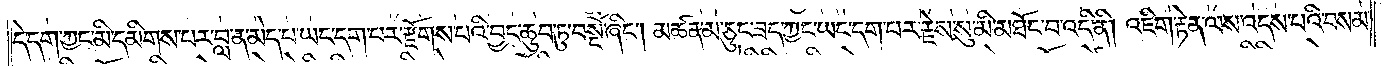དེ་དག་ཀྱང་མི་དམིགས་པར་བླ་ན་མེད་པ་ཡང་དག་པར་རྫོགས་པའི་བྱང་ཆུབ་ཏུ་བསྔོ་ཞིང༌། མཚན་མ་ཅུང་ཟད་ཀྱང་ཡང་དག་པར་རྗེས་སུ་མི་མཐོང་བ་འདི་ནི། འཇིག་རྟེན་ལས་འདས་པའི་བསམ་
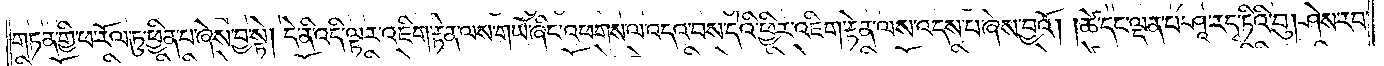གཏན་གྱི་ཕ་རོལ་ཏུ་ཕྱིན་པ་ཞེས་བྱ་སྟེ། དེ་ནི་འདི་ལྟར་འཇིག་རྟེན་ལས་གཡོ་ཞིང་འཕགས་ལ་འདའ་བས་དེའི་ཕྱིར་འཇིག་རྟེན་ལས་འདས་པ་ཞེས་བྱའོ། །ཚེ་དང་ལྡན་པ་ཤཱ་ར་དྭ་ཏིའི་བུ། ཤེས་རབ་
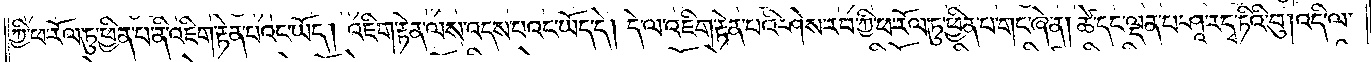ཀྱི་ཕ་རོལ་ཏུ་ཕྱིན་པ་ནི་འཇིག་རྟེན་པའང་ཡོད། འཇིག་རྟེན་ལས་འདས་པའང་ཡོད་དེ། དེ་ལ་འཇིག་རྟེན་པའི་ཤེས་རབ་ཀྱི་ཕ་རོལ་ཏུ་ཕྱིན་པ་གང་ཞེ་ན། ཚེ་དང་ལྡན་པ་ཤཱ་ར་དྭ་ཏིའི་བུ། འདི་ལ་
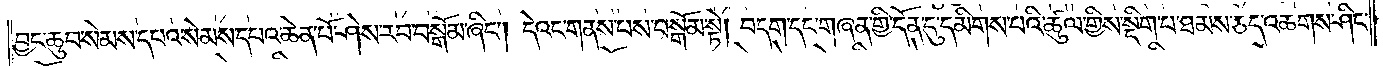བྱང་ཆུབ་སེམས་དཔའ་སེམས་དཔའ་ཆེན་པོ་ཤེས་རབ་བསྒོམ་ཞིང༌། དེའང་གནས་པས་བསྒོམ་སྟེ། བདག་དང་གཞན་གྱི་དོན་དུ་དམིགས་པའི་ཚུལ་གྱིས་སྡིག་པ་ཐམས་ཅད་འཆགས་ཤིང་
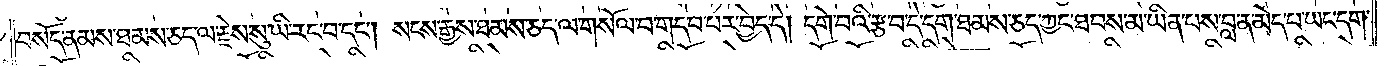བསོད་ནམས་ཐམས་ཅད་ལ་རྗེས་སུ་ཡི་རང་བ་དང༌། སངས་རྒྱས་ཐམས་ཅད་ལ་གསོལ་བ་གདབ་པར་བྱེད་དེ། དགེ་བའི་རྩ་བ་དེ་དག་ཐམས་ཅད་ཀྱང་ཐབས་མ་ཡིན་པས་བླ་ན་མེད་པ་ཡང་དག་
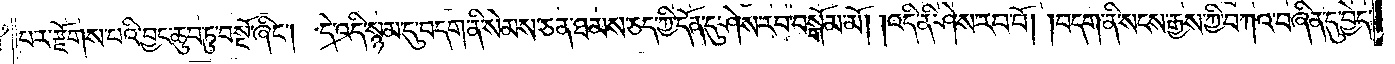པར་རྫོགས་པའི་བྱང་ཆུབ་ཏུ་བསྔོ་ཞིང༌། དེ་འདི་སྙམ་དུ་བདག་ནི་སེམས་ཅན་ཐམས་ཅད་ཀྱི་དོན་དུ་ཤེས་རབ་བསྒོམ་མོ། །འདི་ནི་ཤེས་རབ་བོ། །བདག་ནི་སངས་རྒྱས་ཀྱི་བཀའ་བཞིན་དུ་བྱེད་
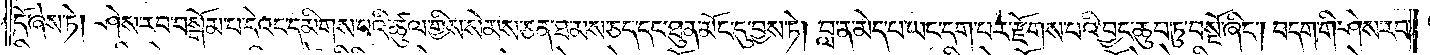དོ་ཞེས་ཏེ། ཤེས་རབ་བསྒོམ་པ་དེའང་དམིགས་པའི་ཚུལ་གྱིས་སེམས་ཅན་ཐམས་ཅད་དང་ཐུན་མོང་དུ་བྱས་ཏེ། བླ་ན་མེད་པ་ཡང་དག་པར་རྫོགས་པའི་བྱང་ཆུབ་ཏུ་བསྔོ་ཞིང༌། བདག་གི་ཤེས་རབ་
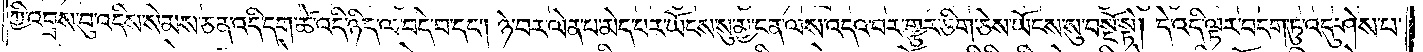ཀྱི་འབྲས་བུ་འདིས་སེམས་ཅན་འདི་དག་ཚེ་འདི་ཉིད་ལ་བདེ་བ་དང༌། ཉེ་བར་ལེན་པ་མེད་པར་ཡོངས་སུ་མྱ་ངན་ལས་འདའ་བར་གྱུར་ཅིག་ཅེས་ཡོངས་སུ་བསྔོ་སྟེ། དེ་འདི་ལྟར་བདག་ཏུ་འདུ་ཤེས་པ་
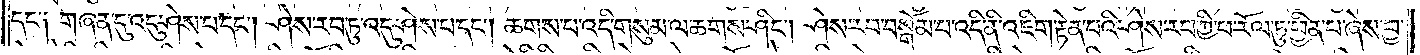དང༌༏ གཞན་དུ་འདུ་ཤེས་པ་དང༌། ཤེས་རབ་ཏུ་འདུ་ཤེས་པ་དང༌། ཆགས་པ་འདི་གསུམ་ལ་ཆགས་ཤིང༌། ཤེས་རབ་བསྒོམ་པ་འདི་ནི་འཇིག་རྟེན་པའི་ཤེས་རབ་ཀྱི་ཕ་རོལ་ཏུ་ཕྱིན་པ་ཞེས་བྱ་
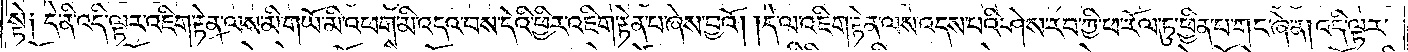སྟེ༏ དེ་ནི་འདི་ལྟར་འཇིག་རྟེན་ལས་མི་གཡོ་མི་འཕགས་མི་འདའ་བས་དེའི་ཕྱིར་འཇིག་རྟེན་པ་ཞེས་བྱའོ། །དེ་ལ་འཇིག་རྟེན་ལས་འདས་པའི་ཤེས་རབ་ཀྱི་ཕ་རོལ་ཏུ་ཕྱིན་པ་གང་ཞེ་ན། འདི་ལྟར་
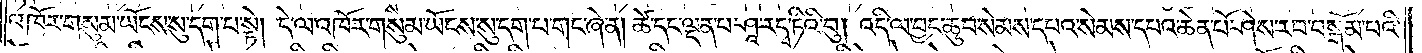འཁོར་གསུམ་ཡོངས་སུ་དག་པ་སྟེ། དེ་ལ་འཁོར་གསུམ་ཡོངས་སུ་དག་པ་གང་ཞེ་ན། ཚེ་དང་ལྡན་པ་ཤཱ་ར་དྭ་ཏིའི་བུ། འདི་ལ་བྱང་ཆུབ་སེམས་དཔའ་སེམས་དཔའ་ཆེན་པོ་ཤེས་རབ་བསྒོམ་པའི་
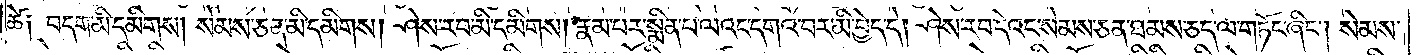ཚེ༏ བདག་མི་དམིགས། སེམས་ཅན་མི་དམིགས། ཤེས་རབ་མི་དམིགས། རྣམ་པར་སྨིན་པ་ལའང་དགའ་བར་མི་བྱེད་དེ། ཤེས་རབ་དེའང་སེམས་ཅན་ཐམས་ཅད་ལ་གཏོང་ཞིང༌། སེམས་
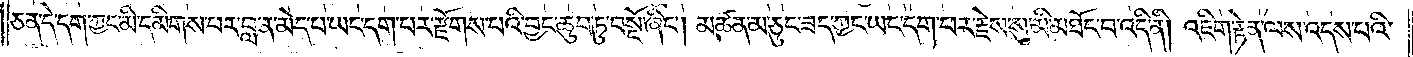ཅན་དེ་དག་ཀྱང་མི་དམིགས་པར་བླ་ན་མེད་པ་ཡང་དག་པར་རྫོགས་པའི་བྱང་ཆུབ་ཏུ་བསྔོ་ཞིང༌། མཚན་མ་ཅུང་ཟད་ཀྱང་ཡང་དག་པར་རྗེས་སུ་མི་མཐོང་བ་འདི་ནི། འཇིག་རྟེན་ལས་འདས་པའི་
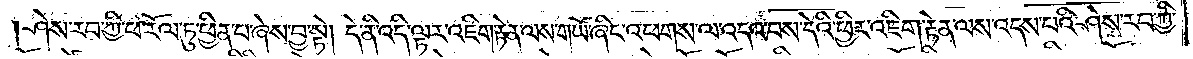ཤེས་རབ་ཀྱི་ཕ་རོལ་ཏུ་ཕྱིན་པ་ཞེས་བྱ་སྟེ། དེ་ནི་འདི་ལྟར་འཇིག་རྟེན་ལས་གཡོ་ཞིང་འཕགས་ལ་འདའ་བས་དེའི་ཕྱིར་འཇིག་རྟེན་ལས་འདས་པའི་ཤེས་རབ་ཀྱི་
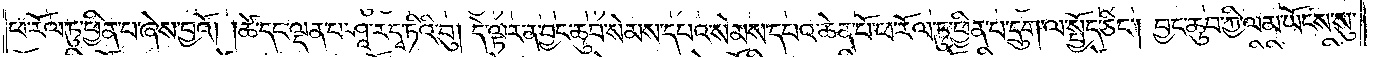ཕ་རོལ་ཏུ་ཕྱིན་པ་ཞེས་བྱའོ། །ཚེ་དང་ལྡན་པ་ཤཱ་ར་དྭ་ཏིའི་བུ། དེ་ལྟར་ན་བྱང་ཆུབ་སེམས་དཔའ་སེམས་དཔའ་ཆེན་པོ་ཕ་རོལ་ཏུ་ཕྱིན་པ་དྲུག་ལ་སྤྱོད་ཅིང༌། བྱང་ཆུབ་ཀྱི་ལམ་ཡོངས་སུ་
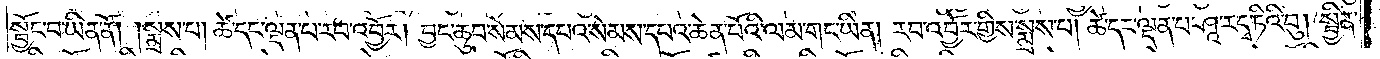སྦྱོང་བ་ཡིན་ནོ། །སྨྲས་པ། ཚེ་དང་ལྡན་པ་རབ་འབྱོར། བྱང་ཆུབ་སེམས་དཔའ་སེམས་དཔའ་ཆེན་པོའི་ལམ་གང་ཡིན། རབ་འབྱོར་གྱིས་སྨྲས་པ། ཚེ་དང་ལྡན་པ་ཤཱ་ར་དྭ་ཏིའི་བུ། སྦྱིན་
